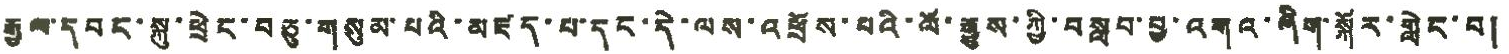རྒྱལ་དབང་སྐུ་ཕྲེང་བཅུ་གསུམ་པའི་མཛད་པ་དང་དེ་ལས་འཕྲོས་པའི་ལོ་རྒྱུས་ཀྱི་བསླབ་བྱ་འགའ་ཞིག་སྐོར་གླེང་བ།
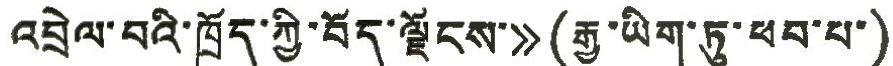འབྲེལ་བའི་ཁྲོད་ཀྱི་བོད་ལྗོངས་》 (རྒྱ་ཡིག་ཏུ་ཕབ་པ་)
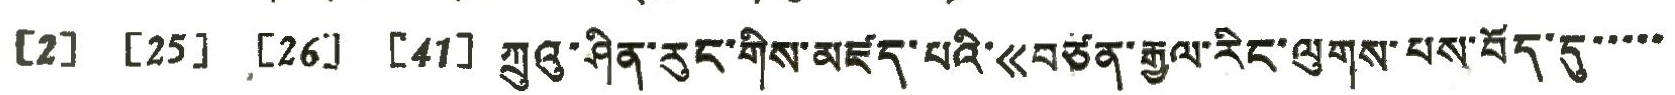[2] [25] [26] [41] ཀྲུའི་ཤིན་རུང་གིས་མཛད་པའི་《བཙན་རྒྱལ་རིང་ལུགས་པས་བོད་དུ་་་་་
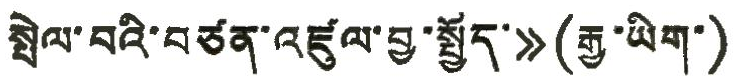སྤེལ་བའི་བཙན་འཛུལ་བྱ་སྦྱོད་》 (རྒྱ་ཡིག་)
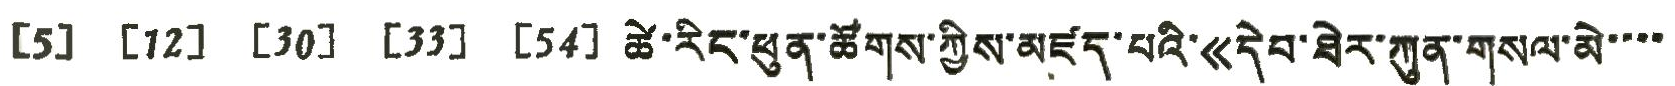[5] [12] [30] [33] [54] ཚེ་རིང་ཕུན་ཚོགས་ཀྱིས་མཛད་པའི་《དེབ་ཐེར་ཀུན་གསལ་མེ་་་་
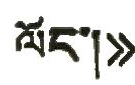ལོང་།》
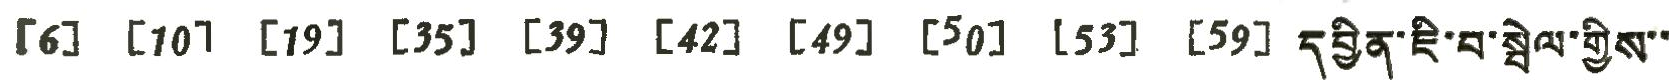[6] [10] [18] [35] [39] [42] [49] [50] [53] [59] དབྱིན་ཇི་བ་སྦེལ་གྱིས་་
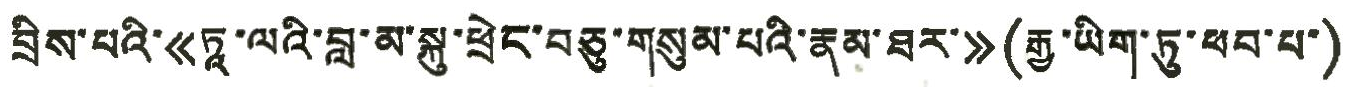བྲིས་པའི་《ཏཱ་ལའི་བླ་མ་སྐུ་ཕྲེང་བཅུ་གསུམ་པའི་རྣམ་ཐར་》 (རྒྱ་ཡིག་ཏུ་ཕབ་པ་)
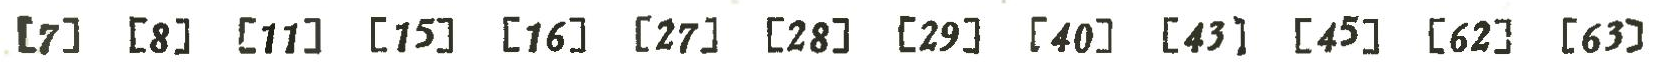[7] [8] [11] [15] [16] [27] [28] [29] [40] [43] [45] [62] [63]
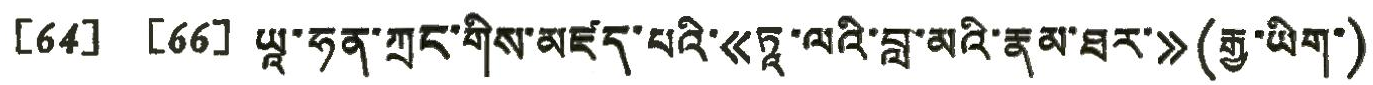[64] [66] ཡཱ་ཧན་ཀྲང་གིས་མཛད་པའི་《ཏཱ་ལའི་བླ་མའི་རྣམ་ཐར་》 (རྒྱ་ཡིག་)
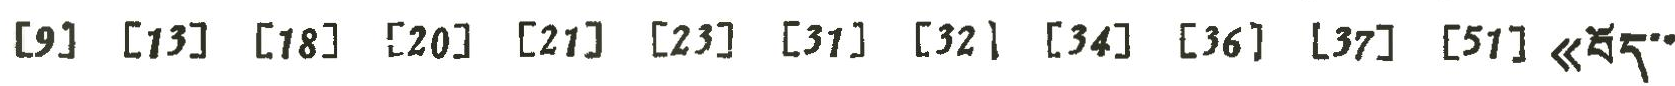[9] [13] [18] [20] [21] [23] [31] [32] [34] [36] [37] [51] 《བོད་་
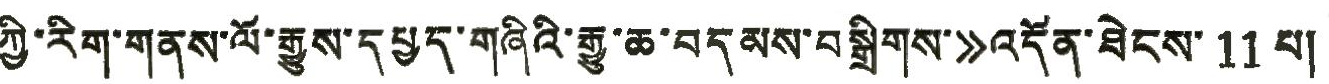ཀྱི་རིག་གནས་ལོ་རྒྱུས་དཔྱད་གཞིའི་རྒྱུ་ཆ་བདམས་བསྒྲིགས་》འདོན་ཐེངས་11 པ།
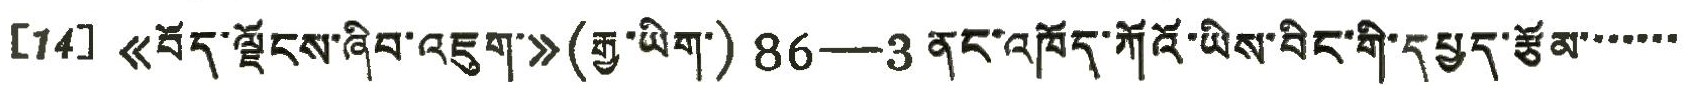[14] 《བོད་ལྗོངས་ཞིབ་འཇུག་》 (རཡ་ཡིག་) 86——3 ནང་འཁོད་ཀོའོ་ཡིས་བིང་གི་དཔྱད་རྩོམ་་་་་་
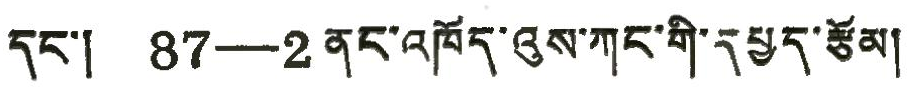དང་། 87——2 ནང་འཁོད་འུས་ཀང་གི་དཔྱད་རྩོམ།
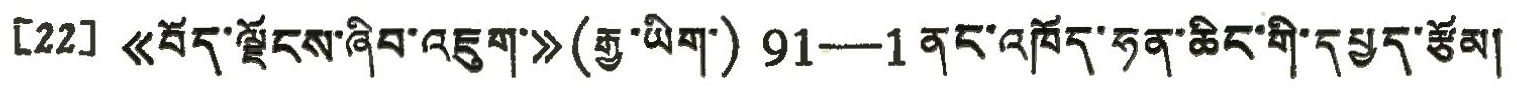[22] 《བོད་ལྗོངས་ཞིབ་འཇུག་》 (རྒྱ་ཡིག་) 91——1 ནང་འཁོད་ཧན་ཆིང་གི་དཔྱད་རྩོམ།
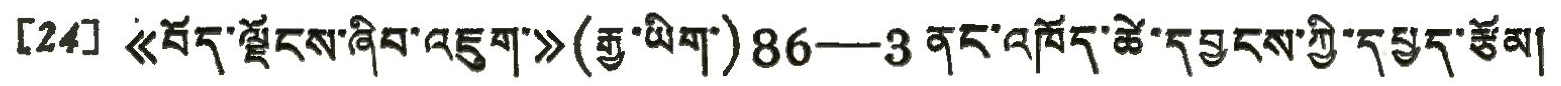[24] 《བོད་ལྗོངས་ཞིབ་འཇུག་》 (རྒྱ་ཡིག་) 86——3 ནང་འཁོད་ཚེ་དབྱངས་ཀྱི་དཔྱད་རྩོམ།
